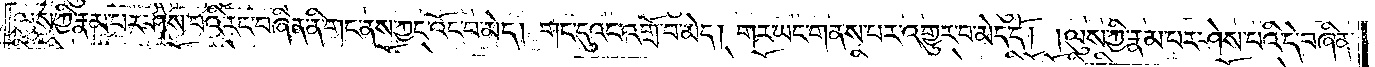ལུས་ཀྱི་རྣམ་པར་ཤེས་པའི་རང་བཞིན་ནི་གང་ནས་ཀྱང་འོང་བ་མེད། གང་དུའང་འགྲོ་བ་མེད། གར་ཡང་གནས་པར་འགྱུར་བ་མེད་དེ། །ལུས་ཀྱི་རྣམ་པར་ཤེས་པའི་དེ་བཞིན་
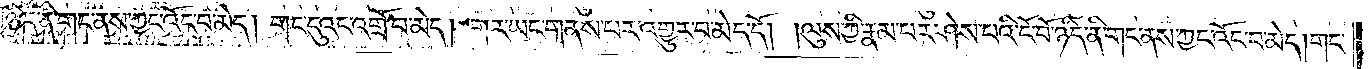ཉིད་ནི་གང་ནས་ཀྱང་འོང་བ་མེད། གང་དུའང་འགྲོ་བ་མེད། གར་ཡང་གནས་པར་འགྱུར་བ་མེད་དོ། །ལུས་ཀྱི་རྣམ་པར་ཤེས་པའི་ངོ་བོ་ཉིད་ནི་གང་ནས་ཀྱང་འོང་བ་མེད། གང་
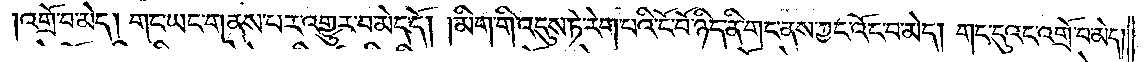འགྲོ་བ་མེད། གང་ཡང་གནས་པར་འགྱུར་བ་མེད་དོ། །མིག་གི་འདུས་ཏེ་རེག་པའི་ངོ་བོ་ཉིད་ནི་གང་ནས་ཀྱང་འོང་བ་མེད། གང་དུའང་འགྲོ་བ་མེད།
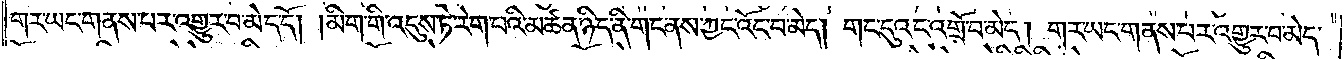གར་ཡང་གནས་པར་འགྱུར་བ་མེད་དོ། །མིག་གི་འདུས་ཏེ་རེག་པའི་མཚན་ཉིད་ནི་གང་ནས་ཀྱང་འོང་བ་མེད། གང་དུའང་འགྲོ་བ་མེད། གར་ཡང་གནས་པར་འགྱུར་བ་མེད་
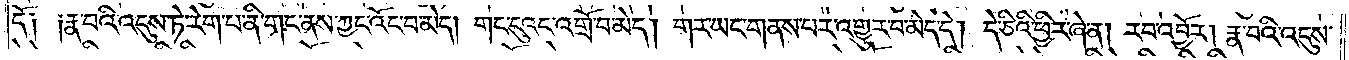དོ། །རྣ་པའི་འདུས་ཏེ་རེག་པ་ནི་གང་ནས་ཀྱང་འོང་བ་མེད། གང་དུའང་འགྲོ་བ་མེད། གར་ཡང་གནས་པར་འགྱུར་བ་མེད་དེ། དེ་ཅིའི་ཕྱིར་ཞེ་ན། རབ་འབྱོར། རྣ་བའི་འདུས་
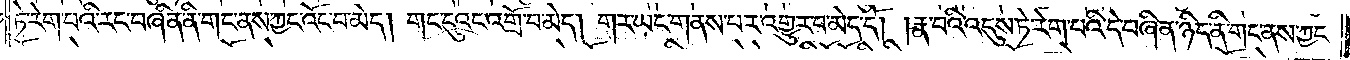ཏེ་རེག་པའི་རང་བཞིན་ནི་གང་ནས་ཀྱང་འོང་བ་མེད། གང་དུའང་འགྲོ་བ་མེད། གར་ཡང་གནས་པར་འགྱུར་བ་མེད་དོ། །རྣ་བའི་འདུས་ཏེ་རེག་པའི་དེ་བཞིན་ཉིད་ནི་གང་ནས་ཀྱང་
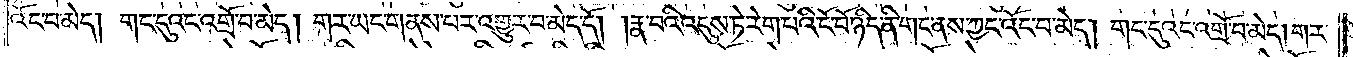འོང་བ་མེད། གང་དུའང་འགྲོ་བ་མེད། གར་ཡང་གནས་པར་འགྱུར་བ་མེད་དོ། །རྣ་བའི་འདུས་ཏེ་རེག་པའི་ངོ་བོ་ཉིད་ནི་གང་ནས་ཀྱང་འོང་བ་མེད། གང་དུའང་འགྲོ་བ་མེད། གར་
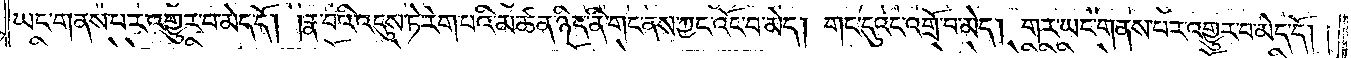ཡང་གནས་པར་འགྱུར་བ་མེད་དོ། །རྣ་བའི་འདུས་ཏེ་རེག་པའི་མཚན་ཉིད་ནི་གང་ནས་ཀྱང་འོང་བ་མེད། གང་དུའང་འགྲོ་བ་མེད། གར་ཡང་གནས་པར་འགྱུར་བ་མེད་དོ། །
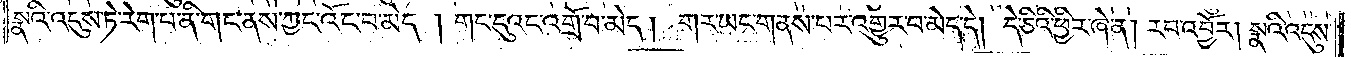སྣའི་འདུས་ཏེ་རེག་པ་ནི་གང་ནས་ཀྱང་འོང་བ་མེད། གང་དུའང་འགྲོ་བ་མེད། གར་ཡང་གནས་པར་འགྱུར་བ་མེད་དེ། དེ་ཅིའི་ཕྱིར་ཞེ་ན། རབ་འབྱོར། སྣའི་འདུས་
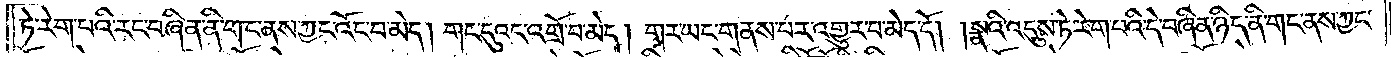ཏེ་རེག་པའི་རང་བཞིན་ནི་གང་ནས་ཀྱང་འོང་བ་མེད། གང་དུའང་འགྲོ་བ་མེད། གར་ཡང་གནས་པར་འགྱུར་བ་མེད་དོ། །སྣའི་འདུས་ཏེ་རེག་པའི་དེ་བཞིན་ཉིད་ནི་གང་ནས་ཀྱང་
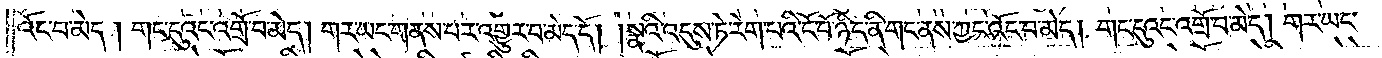འོང་བ་མེད། གང་དུའང་འགྲོ་བ་མེད། གར་ཡང་གནས་པར་འགྱུར་བ་མེད་དོ། །སྣའི་འདུས་ཏེ་རེག་པའི་ངོ་བོ་ཉིད་ནི་གང་ནས་ཀྱང་འོང་བ་མེད། གང་དུའང་འགྲོ་བ་མེད། གར་ཡང་
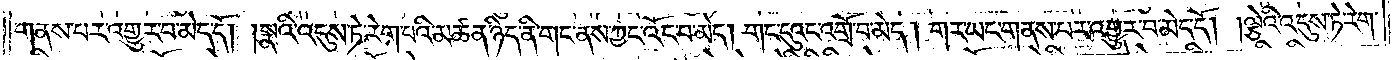གནས་པར་འགྱུར་བ་མེད་དོ། །སྣའི་འདུས་ཏེ་རེག་པའི་མཚན་ཉིད་ནི་གང་ནས་ཀྱང་འོང་བ་མེད། གང་དུའང་འགྲོ་བ་མེད། གར་ཡང་གནས་པར་འགྱུར་བ་མེད་དོ། །ལྕེའི་འདུས་ཏེ་རེག་
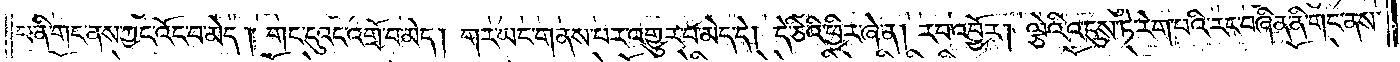པ་ནི་གང་ནས་ཀྱང་འོང་བ་མེད། གང་དུའང་འགྲོ་བ་མེད། གར་ཡང་གནས་པར་འགྱུར་བ་མེད་དེ། དེ་ཅིའི་ཕྱིར་ཞེ་ན། རབ་འབྱོར། ལྕེའི་འདུས་ཏེ་རེག་པའི་རང་བཞིན་ནི་གང་ནས་
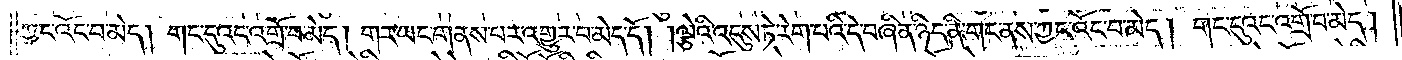ཀྱང་འོང་བ་མད། གང་དུའང་འགྲོ་བ་མེད། གར་ཡང་གནས་པར་འགྱུར་བ་མེད་དོ། །ལྕེའི་འདུས་ཏེ་རེག་པའི་དེ་བཞིན་ཉིད་ནི་གང་ནས་ཀྱང་འོང་བ་མེད། གང་དུའང་འགྲོ་བ་མེད།
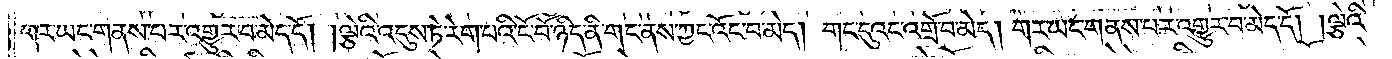གར་ཡང་གནས་པར་འགྱུར་བ་མེད་དོ། །ལྕེའི་འདུས་ཏེ་རེག་པའི་ངོ་བོ་ཉིད་ནི་གང་ནས་ཀྱང་འོང་བ་མེད། གང་དུའང་འགྲོ་བ་མེད། གར་ཡང་གནས་པར་འགྱུར་བ་མེད་དོ། །ལྕེའི་
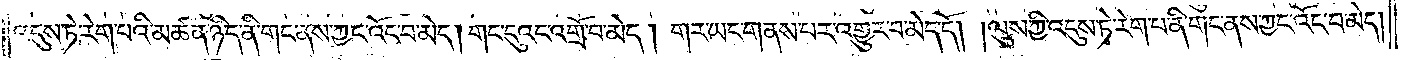འདུས་ཏེ་རེག་པའི་མཚན་ཉིད་ནི་གང་ནས་ཀྱང་འོང་བ་མེད། གང་དུའང་འགྲོ་བ་མེད། གར་ཡང་གནས་བར་འགྱུར་བ་མེད་དོ། །ལུས་ཀྱི་འདུས་ཏེ་རེག་པ་ནི་གང་ནས་ཀྱང་འོང་བ་མེད།
